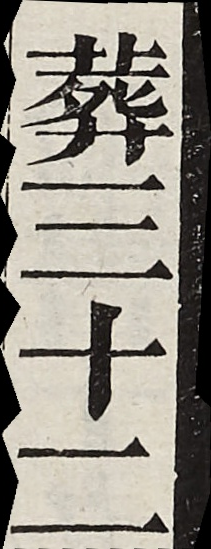葬三十二
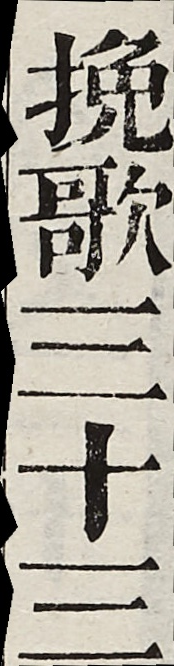挽歌三十三
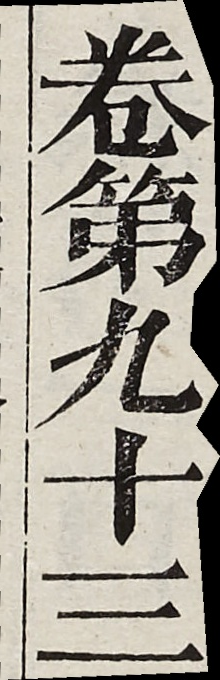卷第九十三
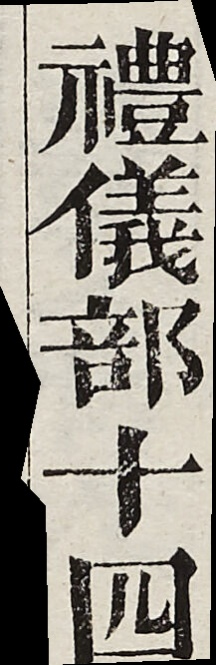禮儀部十四
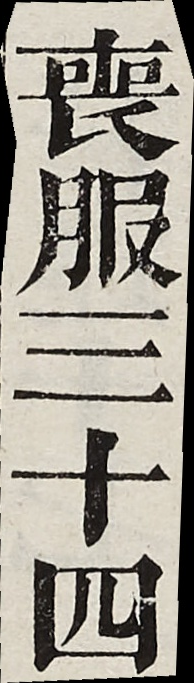喪服三十四
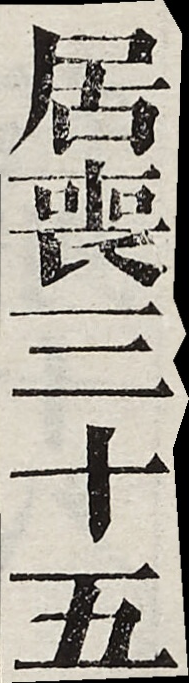居喪三十五
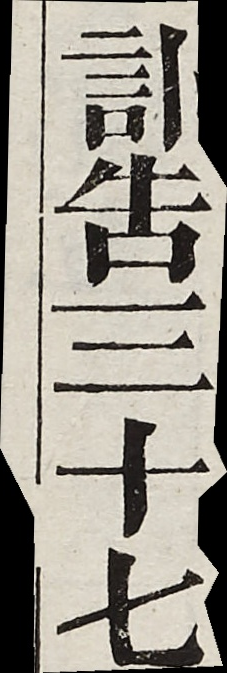訃告三十七
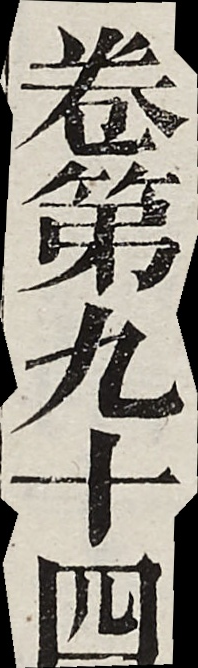卷第九十四
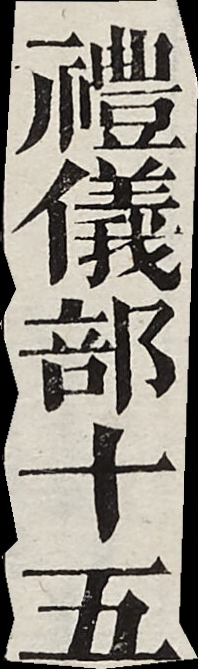禮儀部十五
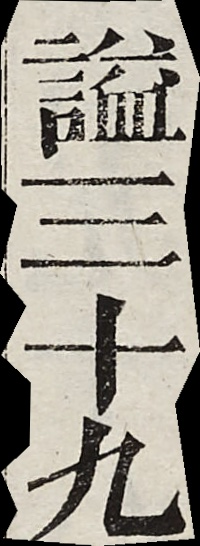謚三十九
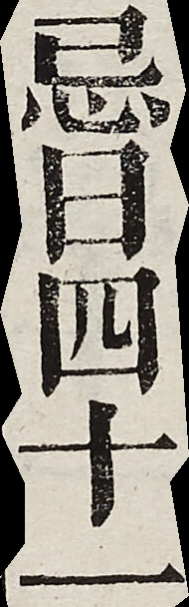忌日四十一
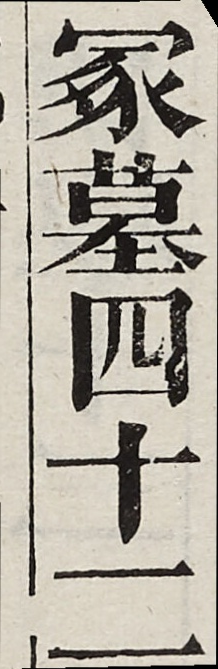塚墓四十二
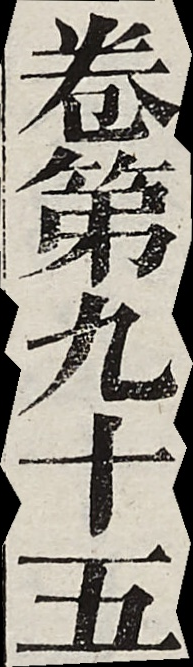卷第九十五
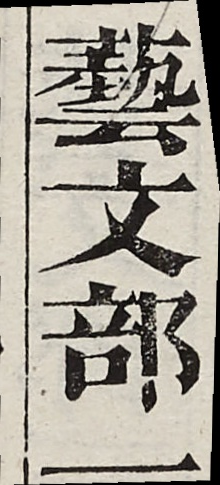藝文部一
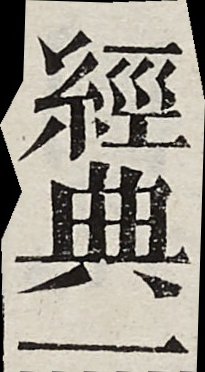經典一
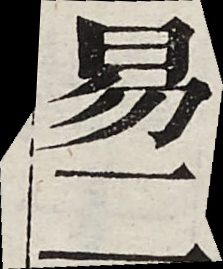易二
